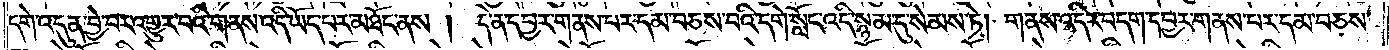དགེ་འདུན་བྱེ་བར་འགྱུར་བའི་གནས་འདི་ཡོད་པར་མཐོང་ནས། དེ་ན་དབྱར་གནས་པར་དམ་བཅས་བའི་དགེ་སློང་འདི་སྙམ་དུ་སེམས་ཏེ། གནས་འདིར་བདག་དབྱར་གནས་པར་དམ་བཅས་
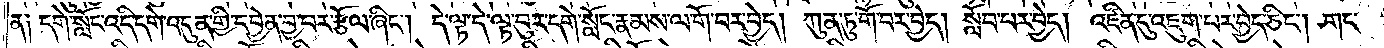ན༑ དགེ་སློང་འདི་དགེ་འདུན་གྱི་དབྱེན་བྱ་བར་རྩོལ་ཞིང༌། དེ་ལྟ་དེ་ལྟ་བུར་དགེ་སློང་རྣམས་ལ་གོ་བར་བྱེད། ཀུན་ཏུ་གོ་བར་བྱེད། སློབ་པར་བྱེད། འཛིན་དུ་འཇུག་པར་བྱེད་ཅིང༌། གང་
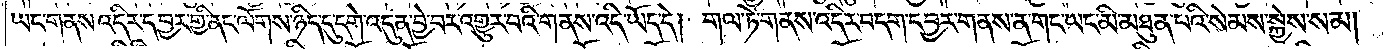ཡང་གནས་འདིར་དབྱར་གྱི་ནང་ལོགས་ཉིད་དུ་དགེ་འདུན་བྱེ་བར་འགྱུར་བའི་གནས་འདི་ཡོད་དེ། གལ་ཏེ་གནས་འདིར་བདག་དབྱར་གནས་ན་གང་ཡང་མི་མཐུན་པའི་སེམས་སྐྱེས་སམ།
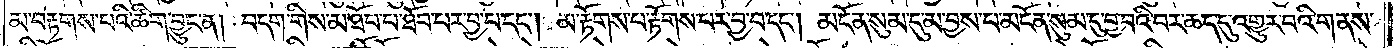མ་བརྟགས་པའི་ཚིག་བྱུང་ན། བདག་གིས་མ་ཐོབ་པ་ཐོབ་པར་བྱ་བ་དང༌། མ་རྟོགས་པ་རྟོགས་པར་བྱ་བ་དང༌། མངོན་སུམ་དུ་མ་བྱས་པ་མངོན་སུམ་དུ་བྱ་བའི་བར་ཆད་དུ་འགྱུར་བའི་གནས་
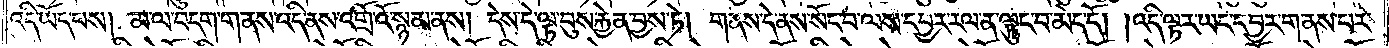འདི་ཡོད་པས། མ་ལ་བདག་གནས་འདི་ནས་འགྲོ་འོ་སྙམ་ནས། དེས་དེ་ལྟ་བུས་རྐྱེན་བྱས་ཏེ། གནས་དེ་ནས་སོང་བ་ལས་དབྱར་རལ་ན་ལྟུང་བ་མེད་དོ། །འདི་ལྟར་ཡང་དབྱར་གནས་པར་
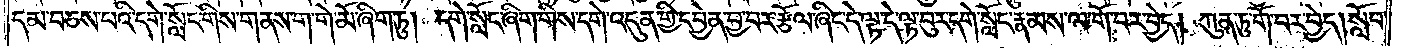དམ་བཅས་པའི་དགེ་སློང་གིས་གནས་ག་གེ་མོ་ཞིག་ཏུ། དགེ་སློང་ཞིག་གིས་དགེ་འདུན་གྱི་དབྱེན་བྱ་བར་རྩོལ་ཞིང་དེ་ལྟ་དེ་ལྟ་བུར་དགེ་སློང་རྣམས་ལ་གོ་བར་བྱེད། ཀུན་ཏུ་གོ་བར་བྱེད། སློབ་
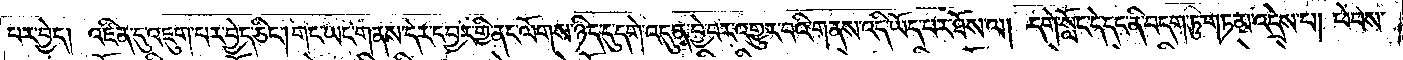པར་བྱེད། འཛིན་དུ་འཇུག་པར་བྱེད་ཅིང༌། གང་ཡང་གནས་དེར་དབྱར་གྱི་ནང་ལོགས་ཉིད་དུ་དགེ་འདུན་བྱེ་བར་འགྱུར་བའི་གནས་འདི་ཡོད་པར་ཐོས་ལ། དགེ་སློང་དེ་དང་ནི་བདག་ཏུ་གཏམ་འདྲེས་པ། ཕེབས་
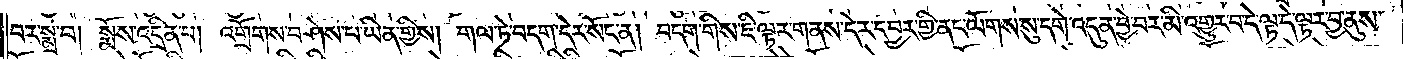བར་སྨྲ་བ། སྨོས་འདྲིན་པ། འགྲོགས་བཤེས་པ་ཡིན་གྱིས། གལ་ཏེ་བདག་དེར་སོང་ན། བདག་གིས་ཇི་ལྟར་གནས་དེར་དབྱར་གྱི་ནང་ལོགས་སུ་དགེ་འདུན་བྱེ་བར་མི་འགྱུར་བ་དེ་ལྟ་དེ་ལྟར་བྱ་ནུས་
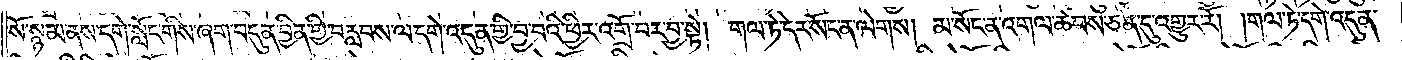སོ་སྙམ་ནས་དགེ་སློང་གིས་ཞག་བདུན་བྱིན་གྱི་བརླབས་ལ་དགེ་འདུན་གྱི་བྱ་བའི་ཕྱིར་འགྲོ་བར་བྱ་སྟེ། གལ་ཏེ་དེར་སོང་ན་ལེགས། མ་སོང་ན་འགལ་ཚབས་ཅན་དུ་འགྱུར་རོ། །གལ་ཏེ་དགེ་འདུན་
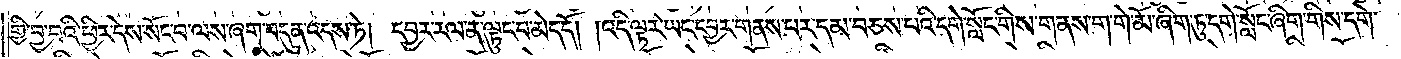གྱི་བྱ་བའི་ཕྱིར་དེས་སོང་བ་ལས་ཞག་བདུན་འདས་ཏེ། དབྱར་རལ་ན་ལྟུང་པ་མེད་དོ། །འདི་ལྟར་ཡང་དབྱར་གནས་པར་དམ་བཅས་པའི་དགེ་སློང་གིས་གནས་ག་གེ་མོ་ཞིག་ཏུ་དགེ་སློང་ཞིག་གིས་དགེ་
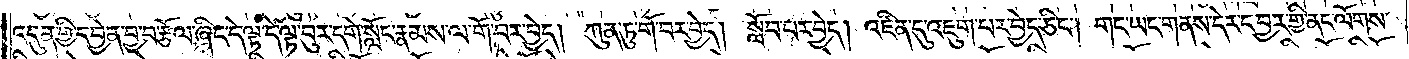འདུན་གྱི་དབྱེན་བྱ་བ་རྩོལ་ཞིང་དེ་ལྟ་དེ་ལྟ་བུར་དགེ་སློང་རྣམས་ལ་གོ་བར་བྱེད། ཀུན་ཏུ་གོ་བར་བྱེད། སློབ་པར་བྱེད། འཛིན་དུ་འཇུག་པར་བྱེད་ཅིང༌། གང་ཡང་གནས་དེར་དབྱར་གྱི་ནང་ལོགས་
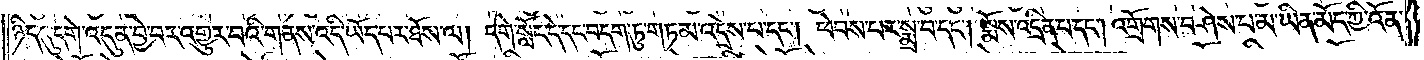ཉིད་དུ་དགེ་འདུན་བྱེ་བར་འགྱུར་བའི་གནས་འདི་ཡོད་པར་ཐོས་ལ། དགེ་སློང་དེ་དང་བདག་ཏུ་གཏམ་འདྲེས་པ་དང༌། ཕེབས་པར་སྨྲ་བ་དང༌། སྨོས་འདྲིན་པ་དང༌། འགྲོགས་བཤེས་པ་མ་ཡིན་མོད་ཀྱི་འོན་
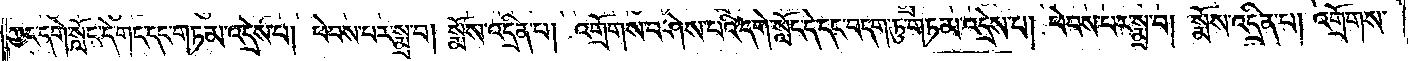ཀྱང་དགེ་སློང་དེ་གང་དང་གཏམ་འདྲེས་པ། ཕེབས་པར་སྨྲ་བ། སྨོས་འདྲིན་པ། འགྲོགས་བཤེས་པའི་དགེ་སློང་དེ་དང་བདག་ཏུ་གཏམ་འདྲེས་པ། ཕེབས་པར་སྨྲ་བ། སྨོས་འདྲིན་པ། འགྲོགས་
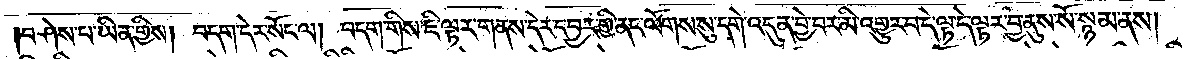བཤེས་པ་ཡིན་གྱིས། བདག་དེར་སོང་ལ། བདག་གིས་ཇི་ལྟར་གནས་དེར་དབྱར་གྱི་ནང་ལོགས་སུ་དགེ་འདུན་བྱེ་བར་མི་འགྱུར་བ་དེ་ལྟ་དེ་ལྟར་བྱ་ནུས་སོ་སྙམ་ནས།
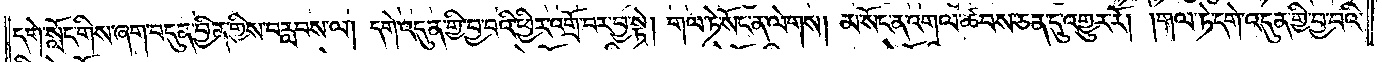དགེ་སློང་གིས་ཞག་བདུན་བྱིན་གྱིས་བརླབས་ལ། དགེ་འདུན་གྱི་བྱ་བའི་ཕྱིར་འགྲོ་བར་བྱ་སྟེ། གལ་ཏེ་སོང་ན་ལེགས། མ་སོང་ན་འགལ་ཚབས་ཅན་དུ་འགྱུར་རོ། །གལ་ཏེ་དགེ་འདུན་གྱི་བྱ་བའི་
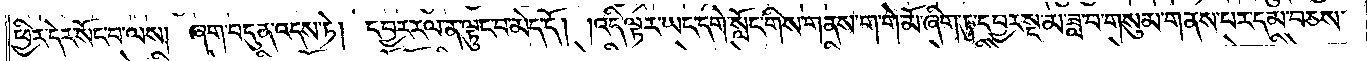ཕྱིར་དེར་སོང་བ་ལས། ཞག་བདུན་འདས་ཏེ། དབྱར་རལ་ན་ལྟུང་བ་མེད་དོ། །འདི་ལྟར་ཡང་དགེ་སློང་གིས་གནས་ག་གེ་མོ་ཞིག་ཏུ་དབྱར་སྔ་མ་ཟླ་བ་གསུམ་གནས་པར་དམ་བཅས་
